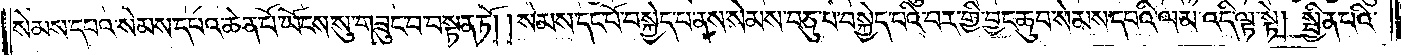སེམས་དཔའ་སེམས་དཔའ་ཆེན་པོ་ཡོངས་སུ་བཟུང་བ་བསྟན་ཏོ། །སེམས་དང་པོ་བསྐྱེད་པ་ནས་སེམས་བཅུ་པ་བསྐྱེད་པའི་བར་གྱི་བྱང་ཆུབ་སེམས་དཔའི་ལམ་འདི་ལྟ་སྟེ། སྦྱིན་པའི་
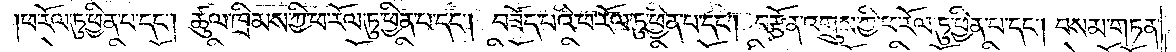ཕ་རོལ་ཏུ་ཕྱིན་པ་དང༌། ཚུལ་ཁྲིམས་ཀྱི་ཕ་རོལ་ཏུ་ཕྱིན་པ་དང༌། བཟོད་པའི་ཕ་རོལ་ཏུ་ཕྱིན་པ་དང༌། བརྩོན་འགྲུས་ཀྱི་ཕ་རོལ་ཏུ་ཕྱིན་པ་དང༌། བསམ་གཏན་
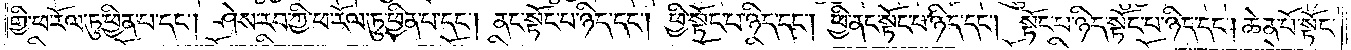གྱི་ཕ་རོལ་ཏུ་ཕྱིན་པ་དང༌། ཤེས་རབ་ཀྱི་ཕ་རོལ་ཏུ་ཕྱིན་པ་དང༌། ནང་སྟོང་པ་ཉིད་དང༌། ཕྱི་སྟོང་པ་ཉིད་དང༌། ཕྱི་ནང་སྟོང་པ་ཉིད་དང༌། སྟོང་པ་ཉིད་སྟོང་པ་ཉིད་དང༌། ཆེན་པོ་སྟོང་
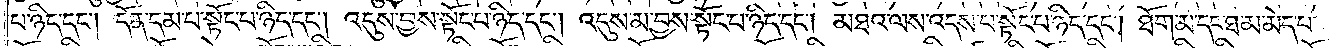པ་ཉིད་དང༌། དོན་དམ་པ་སྟོང་པ་ཉིད་དང༌། འདུས་བྱས་སྟོང་པ་ཉིད་དང༌། འདུས་མ་བྱས་སྟོང་པ་ཉིད་དང༌། མཐའ་ལས་འདས་པ་སྟོང་པ་ཉིད་དང༌། ཐོག་མ་དང་ཐ་མ་མེད་པ་
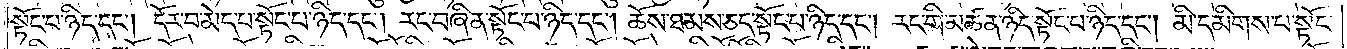སྟོང་པ་ཉིད་དང༌། དོར་བ་མེད་པ་སྟོང་པ་ཉིད་དང༌། རང་བཞིན་སྟོང་པ་ཉིད་དང༌། ཆོས་ཐམས་ཅད་སྟོང་པ་ཉིད་དང༌། རང་གི་མཚན་ཉིད་སྟོང་པ་ཉིད་དང༌། མི་དམིགས་པ་སྟོང་
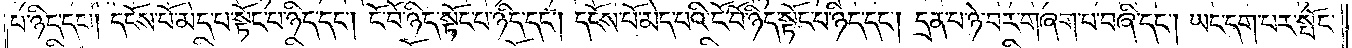པ་ཉིད་དང༌། དངོས་པོ་མེད་པ་སྟོང་པ་ཉིད་དང༌། ངོ་བོ་ཉིད་སྟོང་པ་ཉིད་དང༌། དངོས་པོ་མེད་པའི་ངོ་བོ་ཉིད་སྟོང་པ་ཉིད་དང༌། དྲན་པ་ཉེ་བར་གཞག་པ་བཞི་དང༌། ཡང་དག་པར་སྤོང་
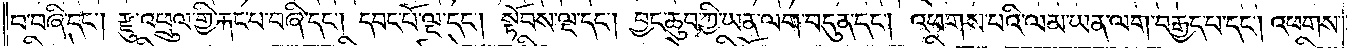བ་བཞི་དང༌། རྫུ་འཕྲུལ་གྱི་རྐང་པ་བཞི་དང༌། དབང་པོ་ལྔ་དང༌། སྟོབས་ལྔ་དང༌། བྱང་ཆུབ་ཀྱི་ཡན་ལག་བདུན་དང༌། འཕགས་པའི་ལམ་ཡན་ལག་བརྒྱད་པ་དང༌། འཕགས་
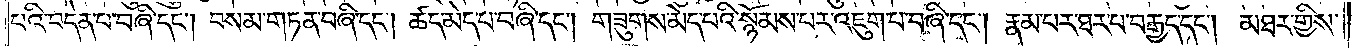པའི་བདེན་པ་བཞི་དང༌། བསམ་གཏན་བཞི་དང༌། ཚད་མེད་པ་བཞི་དང༌། གཟུགས་མེད་པའི་སྙོམས་པར་འཇུག་པ་བཞི་དང༌། རྣམ་པར་ཐར་བ་བརྒྱད་དང༌། མཐར་གྱིས་
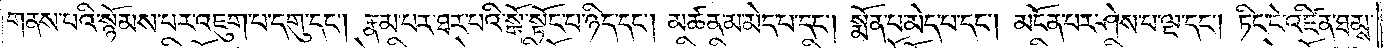གནས་པའི་སྙོམས་པར་འཇུག་པ་དགུ་དང༌། རྣམ་པར་ཐར་པའི་སྒོ་སྟོང་པ་ཉིད་དང༌། མཚན་མ་མེད་པ་དང༌། སྨོན་པ་མེད་པ་དང༌། མངོན་པར་ཤེས་པ་ལྔ་དང༌། ཏིང་ངེ་འཛིན་ཐམས་
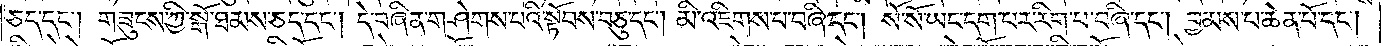ཅད་དང༌། གཟུངས་ཀྱི་སྒོ་ཐམས་ཅད་དང༌། དེ་བཞིན་གཤེགས་པའི་སྟོབས་བཅུ་དང༌། མི་འཇིགས་པ་བཞི་དང༌། སོ་སོ་ཡང་དག་པར་རིག་པ་བཞི་དང༌། བྱམས་པ་ཆེན་པོ་དང༌།
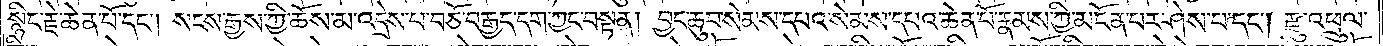སྙིང་རྗེ་ཆེན་པོ་དང༌། སངས་རྒྱས་ཀྱི་ཆོས་མ་འདྲེས་པ་བཅོ་བརྒྱད་དག་ཀྱང་བསྟན། བྱང་ཆུབ་སེམས་དཔའ་སེམས་དཔའ་ཆེན་པོ་རྣམས་ཀྱི་མངོན་པར་ཤེས་པ་དང༌། རྫུ་འཕྲུལ་
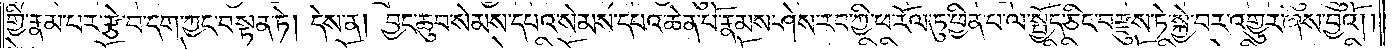གྱི་རྣམ་པར་རྩེ་བ་དག་ཀྱང་བསྟན་ཏེ། དེས་ན། བྱང་ཆུབ་སེམས་དཔའ་སེམས་དཔའ་ཆེན་པོ་རྣམས་ཤེས་རབ་ཀྱི་ཕ་རོལ་ཏུ་ཕྱིན་པ་ལ་སྤྱོད་ཅིང་བརྫུས་ཏེ་སྐྱེ་བར་འགྱུར་ཞེས་བྱའོ། །
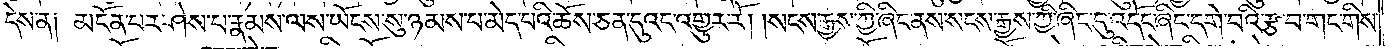དེས་ན༑ མངོན་པར་ཤེས་པ་རྣམས་ལས་ཡོངས་སུ་ཉམས་པ་མེད་པའི་ཆོས་ཅན་དུའང་འགྱུར་རོ། །སངས་རྒྱས་ཀྱི་ཞིང་ནས་སངས་རྒྱས་ཀྱི་ཞིང་དུ་འདོང་ཞིང་དགེ་པའི་རྩ་བ་གང་གིས་
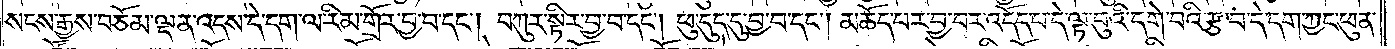སངས་རྒྱས་བཅོམ་ལྡན་འདས་དེ་དག་ལ་རིམ་གྲོར་བྱ་བ་དང༌། བཀུར་སྟིར་བྱ་བ་དང༌། ཕུ་དུད་དུ་བྱ་བ་དང༌། མཆོད་པར་བྱ་བར་འདོད་པ་དེ་ལྟ་བུའི་དགེ་བའི་རྩ་བ་དེ་དག་ཀྱང་ཕུན་
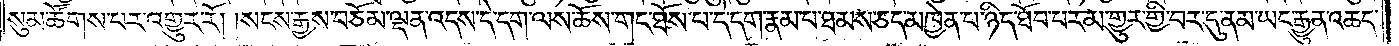སུམ་ཚོགས་པར་འགྱུར་རོ། །སངས་རྒྱས་བཅོམ་ལྡན་འདས་དེ་དག་ལས་ཆོས་གང་ཐོས་པ་དེ་དག་རྣམ་པ་ཐམས་ཅད་མཁྱེན་པ་ཉིད་ཐོབ་པར་མ་གྱུར་གྱི་བར་དུ་ནམ་ཡང་རྒྱུན་འཆད་
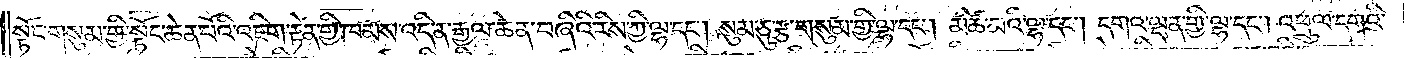སྟོང་གསུམ་གྱི་སྟོང་ཆེན་པོའི་འཇིག་རྟེན་གྱི་ཁམས་འདི་ན་རྒྱལ་ཆེན་བཞིའི་རིས་ཀྱི་ལྷ་དང༌། སུམ་ཅུ་རྩ་གསུམ་གྱི་ལྷ་དང༌། མཚེ་མའི་ལྷ་དང༌། དགའ་ལྡན་གྱི་ལྷ་དང༌། འཕྲུལ་དགའི་
